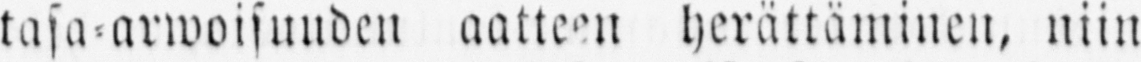tasa-arwoisuuden aatteen herättäminen, niin
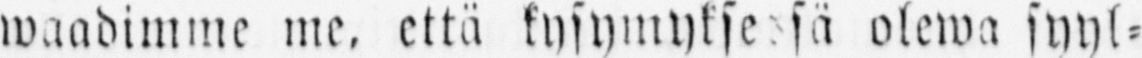waadimme me, että kysymykessä olewa syyl-
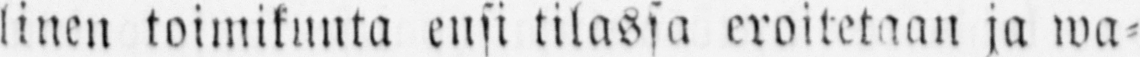linen toimikunta ensi tilassa eroitetaan ja wa-
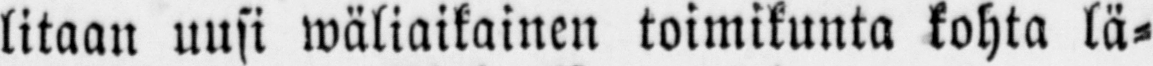litaan uusi wäliaikainen toimikunta kohta lä-
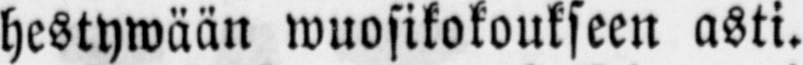hestywään wuosikokoukseen asti.
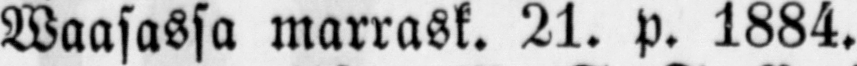Waasassa marrask. 21. p. 1884.
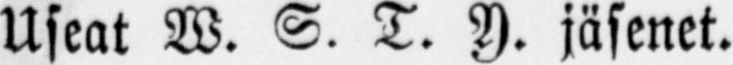Useat W. S. T. Y. jäsenet.
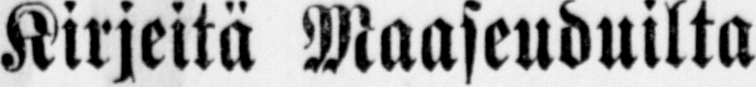Kirjeitä Maaseuduilta
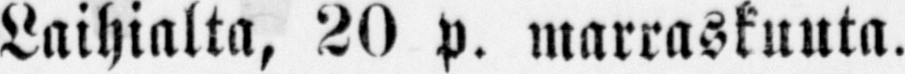Laihialta, 20 p. marraskuuta.
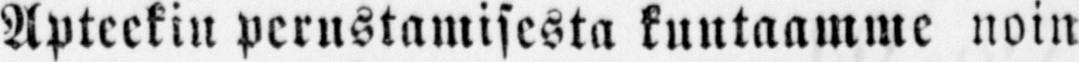Apteekin perustamisesta kuntaamme noin
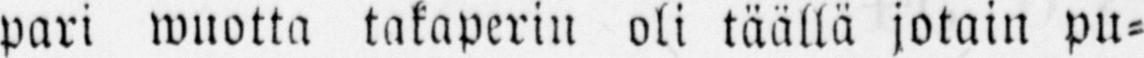pari wuotta takaperin oli täällä jotain pu-
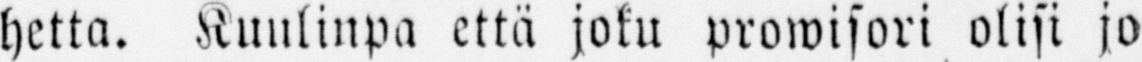hetta. Kuulinpa että joku prowisori olisi jo
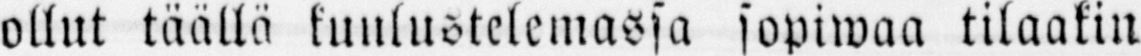ollut täällä kuulustelemassa sopiwaa tilaakin
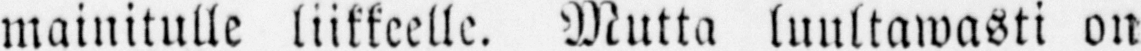mainitulle liikkeelle. Mutta luultawasti on
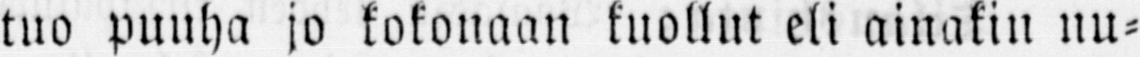tuo puuha jo kokonaan kuollut eli ainakin nu-
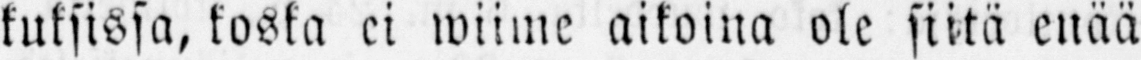kuksissa, koska ei wiime aikoina ole siitä enää
